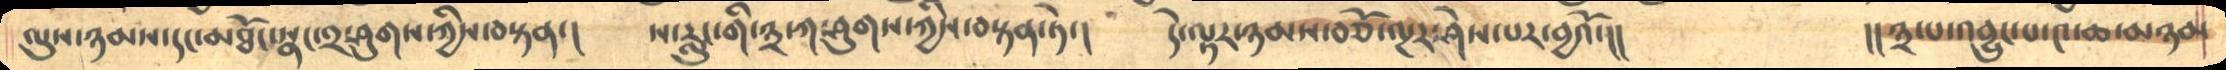ལུས་ཉམས་དང་མཐོང་སྣང་༢་ཤུགས་ཀྱིས་བསྟན་།     ས་རླུང་གི་༣་ཀ་ཤུགས་ཀྱིས་བསྟན་ཏེ་།    དེ་ལྟར་ཉམས་བཅོ་ལྔར་ཤེས་པར་བྱའོ་།།          །།༣་པ་འབྱུང་པ་༤་ཆ་མཉམ
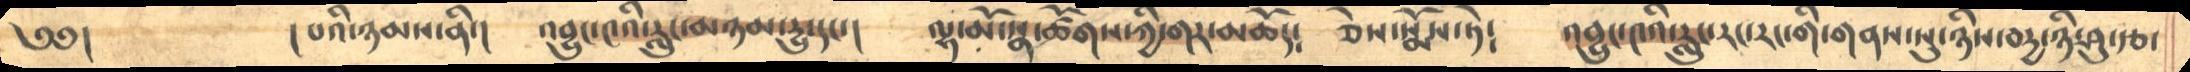༄༅།         །པའི་ཉམས་ནི་།    འབྱུང་༤འི་རླུང་མཉམ་དྱུ་དང་།     ལྷ་མོ་སྣ་ཚོགས་ཀྱི་གར་མཆོད༴    ཅེས་སྨོས་ཏེ༴   འབྱུང་༤འི་རླུང་རང་རང་གི་གནས་སུ་ཉིས་བདྱ་ཉི་ཤུ་རྩ་
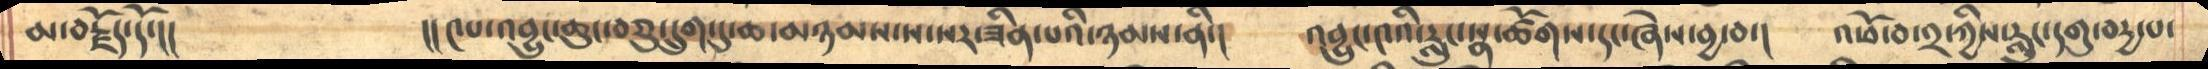མ་བརྗོད་དོ་།།             །།༤པ་འབྱུང་ཆུང་བཅུ་དྲུག་དུ་ཆ་མཉམས་ས་སར་ཟིན་པའི་ཉམས་ནི་།    འབྱུང་༤འི་རླུང་སྣ་ཚོགས་དང་ཞེས་བྱ་བ་།    འཕོ་བ་༢་ཀྱིས་རླུང་དགུ་བདྱ་པ་
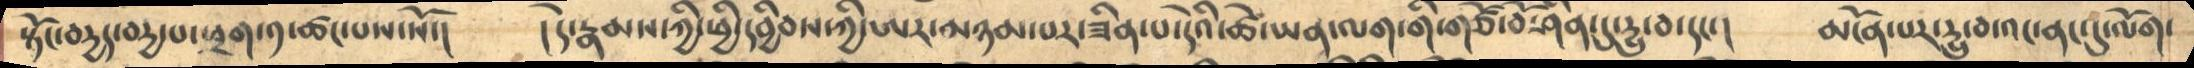སྟོང་བདྱད་བདྱ་པ་ཕྲག་༡་ཚང་པས་སོ་།     །དེ་རྣམས་ཀྱི་ཕྱི་དབྱིབས་ཀྱི་ཨར་མཉམ་པར་ཟིན་པ་དེའི་ཚེ་ཡན་ལག་གི་གཙོ་བོ་ཤིན་དུ་དྱུ་བ་དང་།      མངོན་པར་དྱུ་བ་འང་ནང་དུ་ལོག་
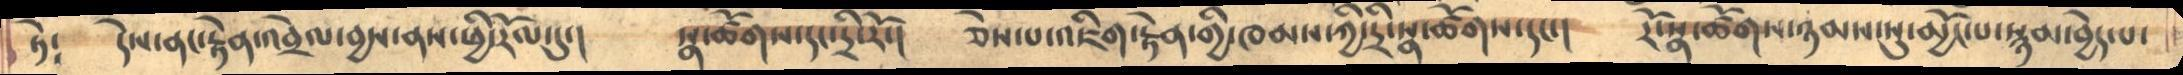ཏེ༴    དེས་ནང་རྟེན་འབྲེལ་བྱས་ནས་ཕྱི་རོལ་དུ་།    སྣ་ཚོགས་དང་དྲི་རོ་།   ཅེས་པ་འཇིག་རྟེན་གྱི་ཁམས་ཀྱི་དྲི་སྣ་ཚོགས་དང་།    རོ་སྣ་ཚོགས་ཉམས་སུ་མྱོང་པ་སྙམ་བྱེད་པ་
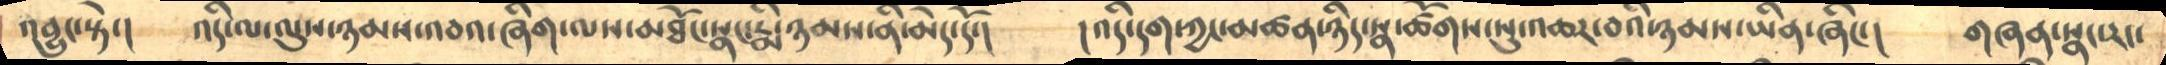འབྱུང་སྟེ་།      འདི་ལ་ལུས་ཉམས་འབའ་ཞིག་ལས་མཐོང་སྣང་རྨི་ཉམས་ནི་མེད་དོ་།     །འདི་དག་ཀྱང་མཚན་ཉིད་སྣ་ཚོགས་སུ་འཆར་བའི་ཉམས་ཡིན་ཞིང་།    གཞན་སྣང་རང་
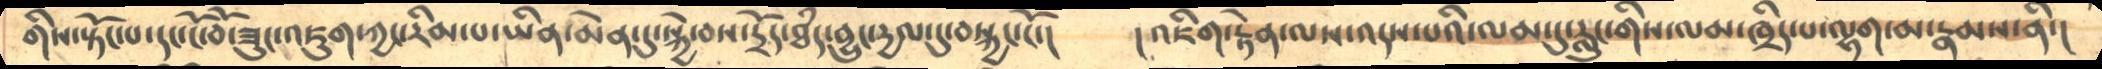གིས་སྟོང་པ་དང་ངོ་བོ་ཟུང་འཇུག་ཀྱང་རིམ་པ་ཡིན་མེན་དུ་སྐྱེ་བས་དྲོད་ཐཾད་བྱུང་དྱལ་དུ་བསྐྱང་ངོ་།      །འཇིག་རྟེན་ལས་འདས་པའི་ལམ་དུ་རླུང་གིས་ལམ་ཁྲིད་པ་ལྷག་མ་རྣམས་ནི་།
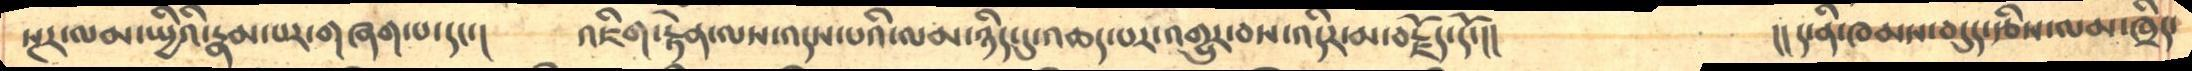སྔར་ལམ་སྤྱིའི་རྣམ་པར་གཞག་པ་དང་།     འཇིག་རྟེན་ལས་འདས་པའི་ལམ་ཉིད་དུ་འཆད་པར་འགྱུར་བས་འདིར་མ་བརྗོད་དོ་།།               །།ད་ནི་ཁམས་བདུད་རྩིས་ལམ་ཁྲིད་
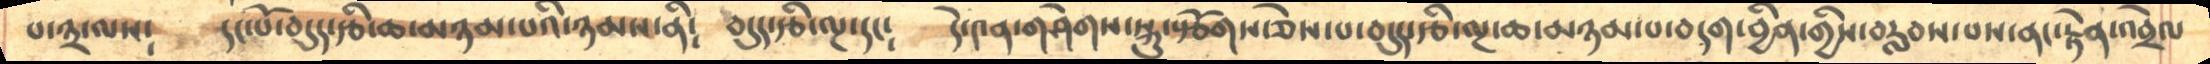པ་༣་ལས༴     དང་པོ་བདུད་རྩི་ཆ་མཉམ་པའི་ཉམས་ནི༴    བདུད་རྩི་ལྔ་དང༴     དེ་༤ན་གཤེགས་སྐུ་སྩོགས་ཅེས་པ་བདུད་རྩི་ལྔ་ཆ་མཉམ་པ་བདག་བྱིན་གྱིས་བརླབས་པས་ནང་རྟེན་འབྲེལ
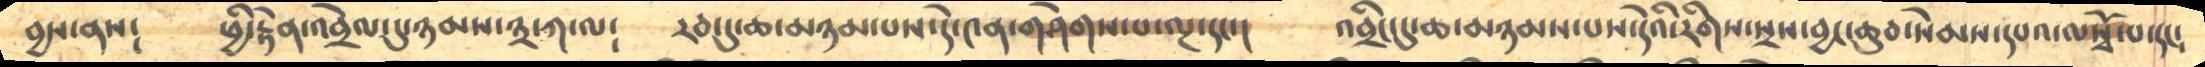བྱས་ནས༴     ཕྱི་རྟེན་འབྲེལ་དུ་ཉམས་༣་ཀ་ལ༴      རབ་དུ་ཆ་མཉམ་པས་དེ་༤ན་གཤེགས་པ་ལྔ་དང་།      འབྲིང་དུ་ཆ་མཉམས་པས་དེའི་རིགས་སྲས་བྱང་ཆུབ་སེམས་དཔའ་ལསྭོ་པ་དང༴
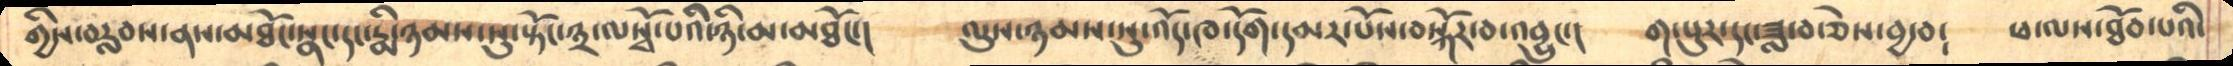གྱིས་བརླབས་ནས་མཐོང་སྣང་དང་རྨི་ཉམས་སུ་སྟོང་༣་ལསྭོ་པའི་ཉི་མ་མཐོང་།    ལུས་ཉམས་སུ་འོད་ཁ་དོག་དམར་པོས་བསྐོར་བ་འབྱུང་།     ག་པུར་དང་ཟླ་བ་ཅེས་བྱ་བ༴    ཕ་ལས་ཐོབ་པའི་
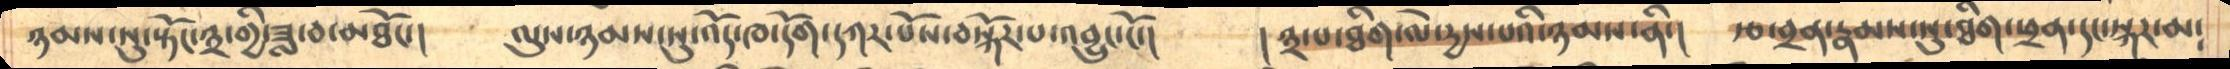ཉམས་སུ་སྟོང་༣་གྱི་ཟླ་བ་མཐོང་།      ལུས་ཉམས་སུ་འོད་ཁ་དོག་དཀར་པོས་བསྐོར་པ་འབྱུང་ངོ་།         །༣་པ་ཐིག་ལེ་དྱས་པའི་ཉམས་ནི་།     རྩ་བྲན་རྣམས་སུ་ཐིག་ཕྲན་དང་སྐར་མ༴
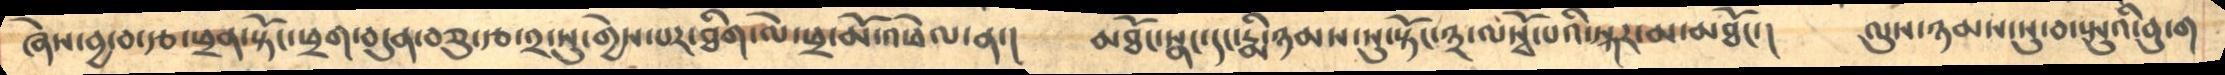ཞེས་བྱ་བ་རྩ་ཕྲན་སྟོང་ཕྲག་བདུན་བཅུ་རྩ་༢་སུ་གྱེས་པར་ཐིག་ལེ་ཕྲ་མོ་འཕེལ་ན་།     མཐོང་སྣང་དང་ཉམས་སུ་སྟོང་༣་ལསྭོ་པའི་སྐར་མ་མཐོང་།      ལུས་ཉམས་སུ་བ་སྤུའི་བུ་ག
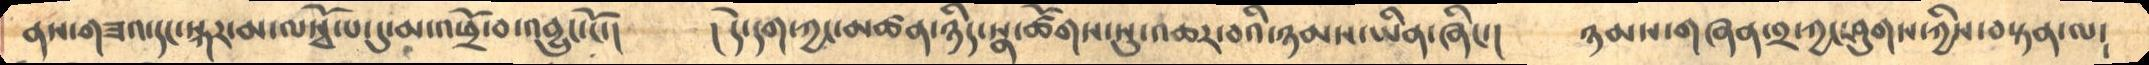ནས་གཟའ་དང་སྐར་མ་ལསྭོ་པ་དུ་མ་འཕྲོ་བ་འབྱུང་ངོ་།      །དེ་དག་ཀྱང་མཚན་ཉིད་སྣ་ཚོགས་སུ་འཆར་བའི་ཉམས་ཡིན་ཞིང་།   ཉམས་གཞན་༢་ཀྱང་ཤུགས་ཀྱིས་བསྟན་ལ༴
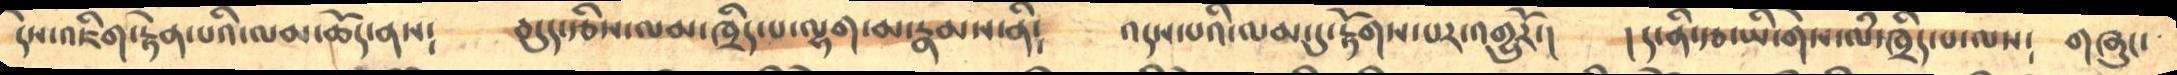དེས་འཇིག་རྟེན་པའི་ལམ་ཆོད་ནས༴    བདུད་རྩིས་ལམ་ཁྲིད་པ་ལྷག་མ་རྣམས་ནི༴   འདས་པའི་ལམ་དུ་རྟོགས་པར་འགྱུརོ་།    །ད་ནི་རྩ་ཡི་གེས་ལཾ་ཁྲིད་པ་ལས༴   གཞུང་
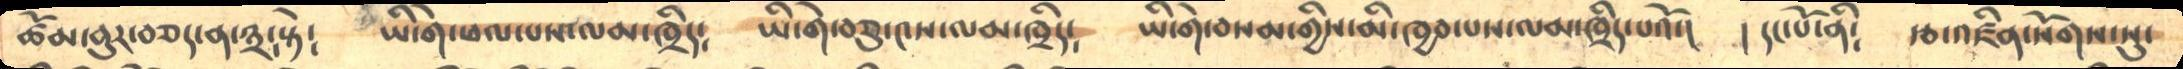ཚོམ་བུར་བཅད་ན་༣་སྟེ༴    ཡི་གེ་ཕལ་པས་ལམ་ཁྲིད༴     ཡི་གེ་བཅུ་༤ས་ལམ་ཁྲིད༴    ཡི་གེ་བསམ་གྱིས་མི་ཁྱབ་པས་ལམ་ཁྲིད་པའོ་།    །དང་པོ་ནི༴    རྩ་འཛིན་སོགས་སུ་
